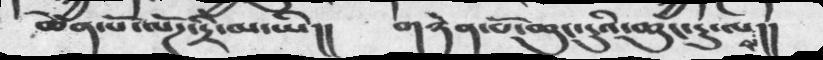ཆེན་པོ་ལོཌ་དྲི་མ་ཡི།།  གཉེན་པོ་ཆུང་ངུའི་ཆུ་དྱུ་ལས།།
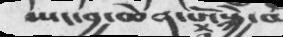སྤང་བྱ་ཆེན་པོ་སྐྱེ་བ
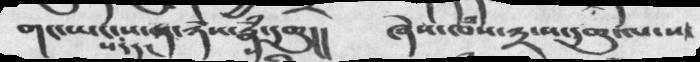གང་ཡས་ས་དང་ས་༢་ཉེས་རྣཾ་དགུ།།  ཞེས་ཁཾས་༣་ས་དགུ་ལ་ས་
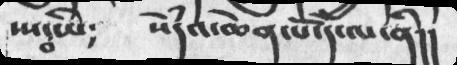ཡ་ཡི༴   སེདཾའ་ཆཻན་པོ་དེ་ལ་ནི།།
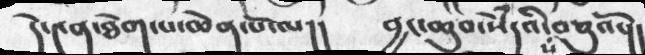དེ་༤ན་ཐེག་པ་ཆེན་པོ་ལ།།  བྱང་ཆུབ་སེཾདའི་ས་བཅུའོ་།།
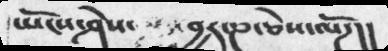ཡོངས་ཤེས་    བྱར་ཎ་ཅེས་ལོཌ།།
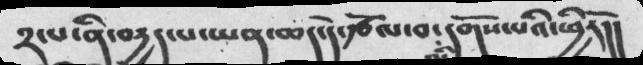༢་པ་ནི་བདྱད་པ་ཡན་ཆད་དེ་རྩོལ་བ་མི་དགོས་པའི་ཕྱིརོ།།
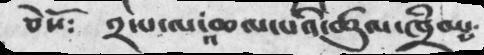ཅེས༴   ༢་པ་ལ་འཆལ་པའི་ཚུལ་ཁྲིམས་
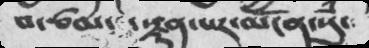བ་ཙམ་  རྫུན་པར་མངོན་སུཾ་
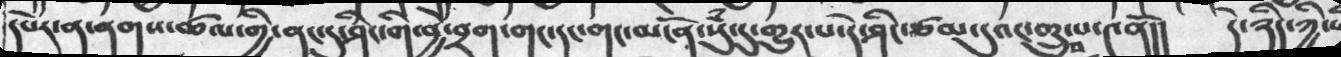དཔེར་ན་ནགས་ཚལ་གྱི་ནང་དུ་ཤིང་གི་བྱེ་བྲག་གང་དང་གང་མངོན་སུཾ་དུ་གྱུར་པ་དེ་ཤེང་ཙམ་དུའང་གྲུབ་པ་༤ནོ།།  དེ་ཉིད་ཀྱི་
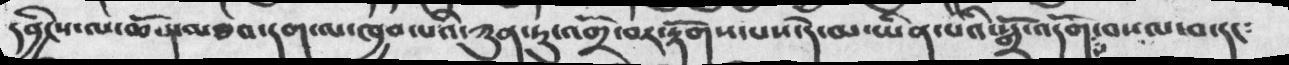དབྱིངས་ལ་ཆོས་མཐའ་དག་ལ་ཁྱབ་པའི་ཀུན་ཏུ་འགྲོ་བར་རྟོགས་པས་དེ་མ་ཡིན་པའི་སྒྲོ་འདོགས་བསལ་བ་དང༴
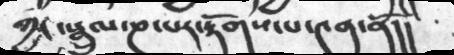ཀྱང་སྦྲུལ་ཎ་པར་རྟོགས་པ་༤ན་ནོ།།
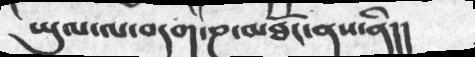ཡུལ་ལ་བདག་ཎ་མཐོང་ནས་ནི།།
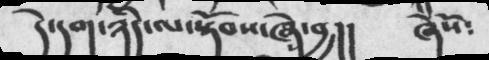དེ་དག་ཉིད་ལ་སྟོབས་ཞེས་བྱ།།  ཞེསོ༴
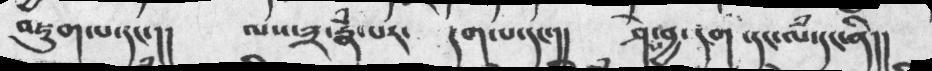འཇུག་པ་དང་།།  ལས་༣་རྣཾ་པར་   དག་པ་དང་།།  ཤེས་བྱ་ དག་དང་ལཾ་དང་ནི།།
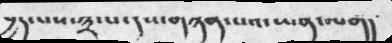བྱེད་པས་༣་པ་དེས་གཉེན་པོའི་ཡན་ལགོ།
